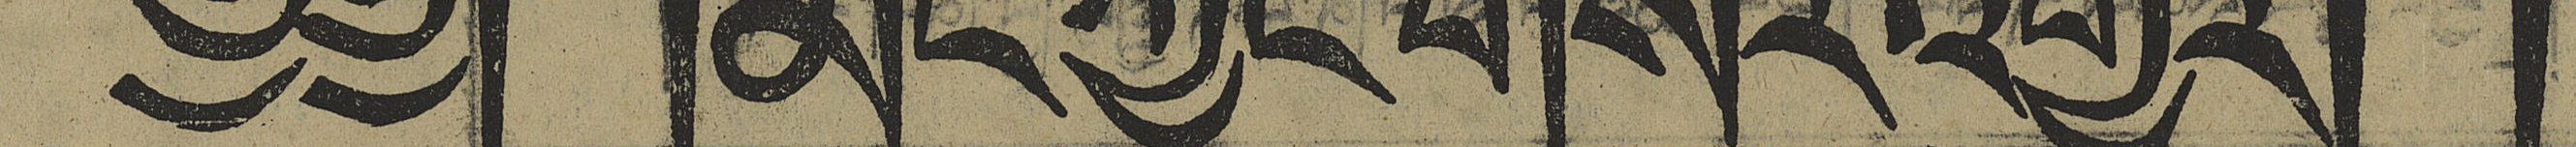༄༅། །མིང་ཀྱཱང་གསར་འགྱུར། །
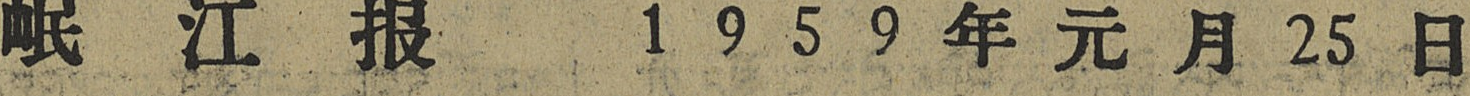岷 江 报 1 9 5 9 年 元 月 25 日
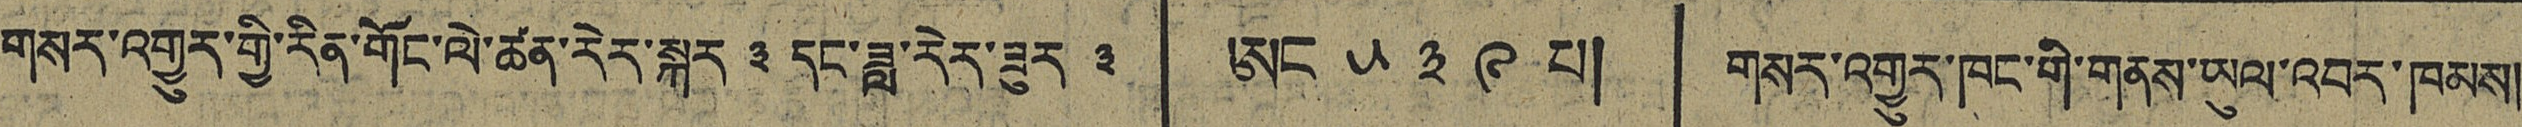གསར་འགྱུར་གྱི་རིན་གོང་ལེ་ཚན་རེར་སྐར ༣ དང་ཟླ་རེར་ཟུར ༣ ཨང ༥༣༩ པ། གསར་འགྱུར་ཁང་གི་གནས་ཡུལ་འབར་ཁམས།
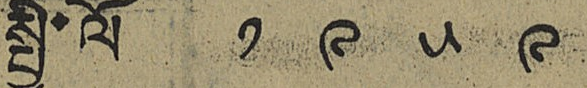སྤྱི་ལོ ༡ ༩ ༥ ༩
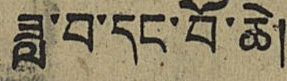ཟླ་བ་དང་བོ་ཚེ།
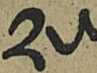༢༥
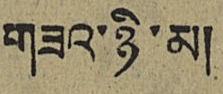གཟའ་ཉི་མ།
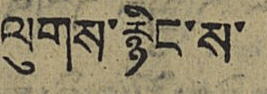ལུགས་རྙིང་ས་
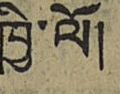ཁྱི་ལོ།
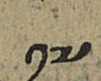༡༧
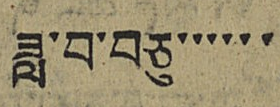ཟླ་བ་བཅུ་་་་་་
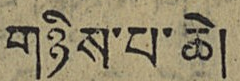གཉིས་པ་ཆེ།
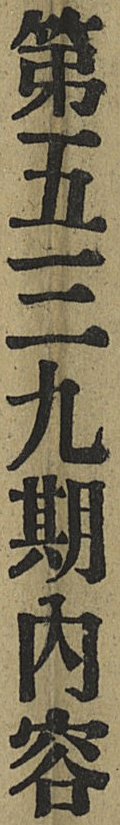第五三九期內容
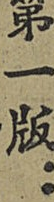第一版：
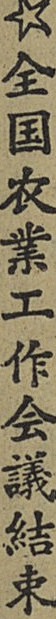☆全国农業工作会議結束
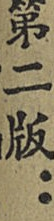第二版：
